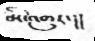མི་འགྱུར་།།
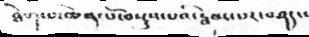ཐེག་པ་ཆེན་པོ་བསྡུས་པའི་རྦེམ་པར་བཤད་།
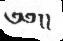༄༅།།
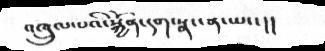འཁྲུལ་པའི་སྐྱོན་དག་སྣང་ན་ཡང་།།
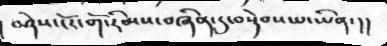། བཤེས་ངོར་གོ་རིམས་བཞིན་དུ་བསྟེབས་པ་ཡིན་།།
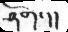ཤོག་།།
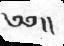༄༅།།
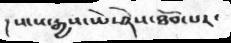། སངས་རྒྱས་ཡེ་ཤེས་ཐོབ་པར་
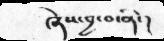ཞེས་བྱ་བ་ནི་།
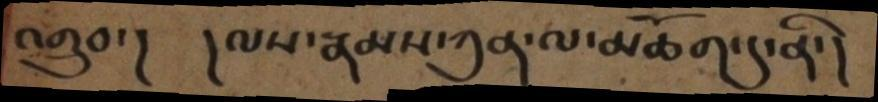འགྲུབ་།  །ལས་རྣམས་ཀུན་ལ་མཆོག་དུ་ནི་།
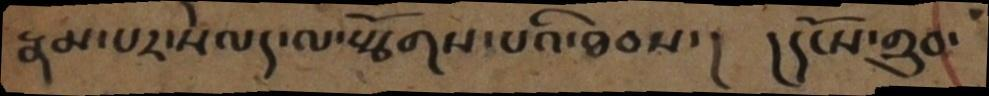རྣམ་པར་སེལད་ལ་སྩོགས་པའི་ཐབས་།   །དངོས་གྲུབ་
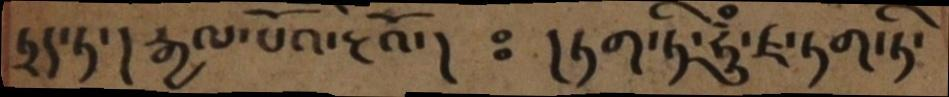ཏྲད་ཏ་།     རྒྱལ་པོའ་རྔའོ་།    ཿ    །ཏག་ཏི་ཧཱུྃ་ཛ་ཏག་ཏི་
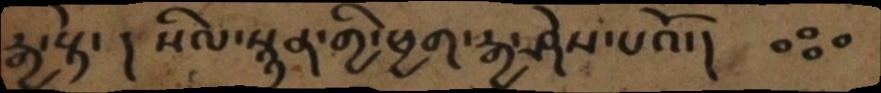རྒྱ་སྟེ་  ། སིལ་སྙན་གྱི་ཕྱག་རྒྱ་ཤེས་པའོ་།
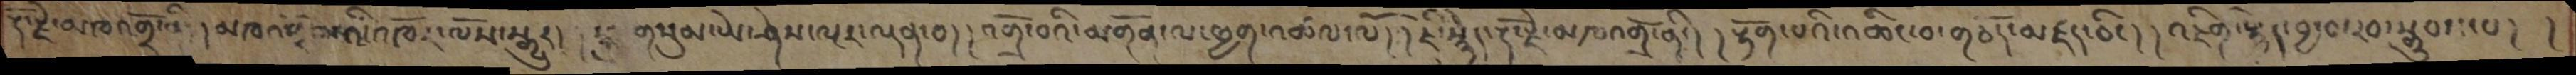རྡོ་རྗེ་མཁའགྲོ་འི་།  མཁའགྲོ་མའི་འཁོར་ལོས་སྒྱུར།  །སྐུ་གསུམ་ཡེ་ཤེས་ལྔར་ལྡན་བ། །འགྲོ་བའི་མགོན་ལ་ཕྱག་འཚལ་ལོ། །ཇི་སྙེད་རྡོ་རྗེ་མཁའགྲོ་ནི་། །རྟོག་པའི་འཆིང་བ་གཅོད་མཛད་ཅིང་། །འཇིག་སྙེད་བྱ་བ་རབ་སྒྲུབས་པ། །
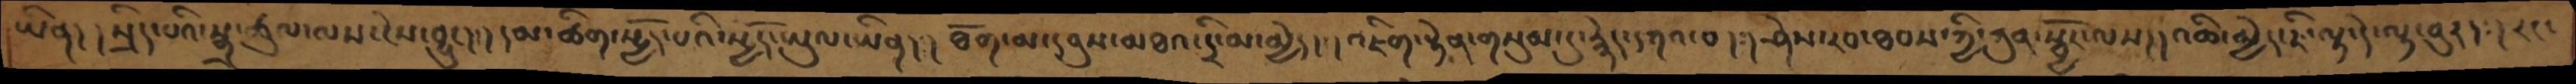ཡིན། །སྲིད་པའི་སྒྲ་ཚུལ་ལས་ངེས་བྱུང། །དམ་ཚིག་སྤྱོད་པའི་སྤྱོད་ཡུལ་ཡིན། །ཐོག་མ་དབུས་མཐའ་དྲི་མ་མྱེད། །འིཇག་རྟེན་གསུམ་དུ་རྙེད་དཀའ་བ། །ཤེས་རབ་ཐབས་ཀྱི་ཀུན་སྦྱོར་ལས། །འཆི་མྱེད་ཇི་ལྟ་དེ་ལྟ་བུར། །རང་
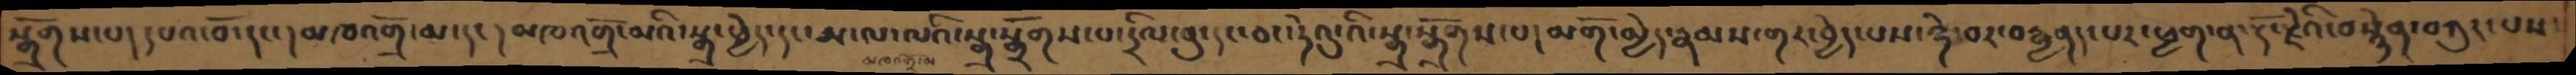སྒྲོགས་པ།  དཔའ་བོ་དང་།མཁའགྲོ་མ་དང་། མཁའགྲོ་མའི་སྒྲ་ཕྱེད་དང་ཨ་ལ་ལའི་སྒྲ་སྒྲོགས་པ་དྲིལ་བུ་དང་ཅང་ཏེའུ་འི་སྒྲ་སྒྲོགས་པ། མགོ་མྱེད་རྣམས་གར་བྱེད་པས་ཉེ་བར་བརྒྱནད་པར་ཕྱག་ན་རྡོ་རྗེའི་བསྙེན་བཀུར་པས་
